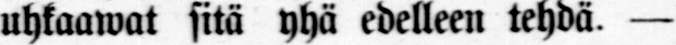uhkaawat sitä yhä edelleen tehdä —
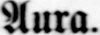Aura.
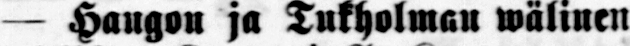— Hangon ja Tukholman wälinen
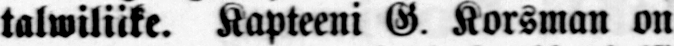talwlliike. Kapteeni G. Korsman on
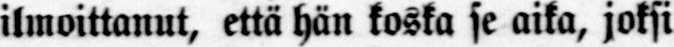ilmoittanut, että hän koska se aika, joksi
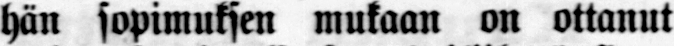hän sopimuksen mukaan on ottanut
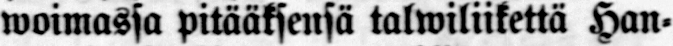woimassa pitääksensä talwiliikettä Han-
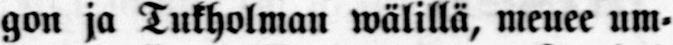gon ja Tukholman wälillä, meuee um-
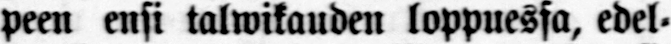peen ensi talwikauden loppuessa, edel-
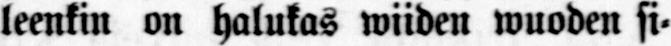leenkin on halukas wiiden wuoden si-
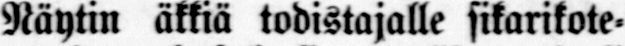Näytin äkkiä todistajalle sikarikote-
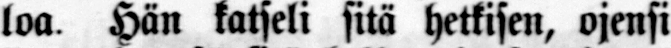loa. Hän katseli sitä hetkisen, ojensi
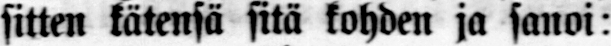sitten kätensä sitä kohden ja sanoi:
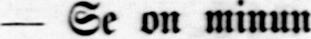— Se on minun
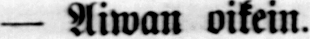— Aiwan oikein.
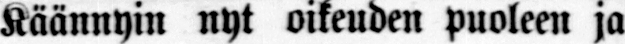Käännyin nyt oikeuden puoleen ja
